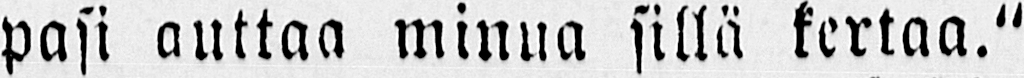pasi auttaa minua sillä kertaa."
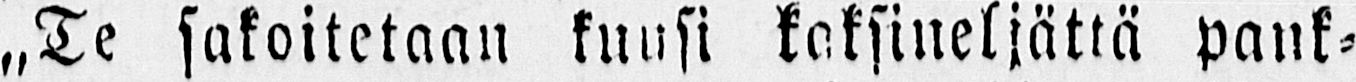„Te sakoitetaan kuusi kaksineljättä pank-
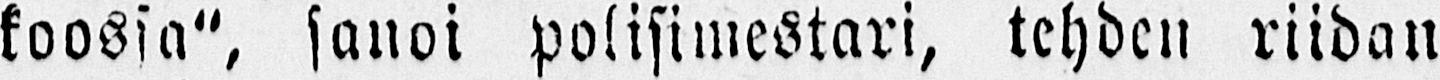koossa", sanoi polisimestari, tehden riidan
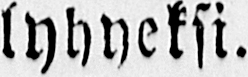lyhyeksi.
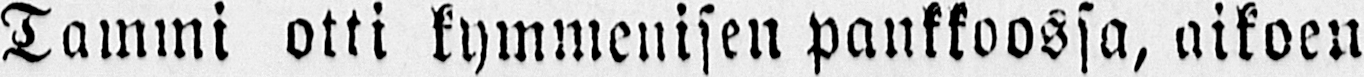Tammi otti kymmenisen pankkoossa, aikoen
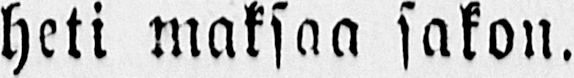heti maksaa sakon.
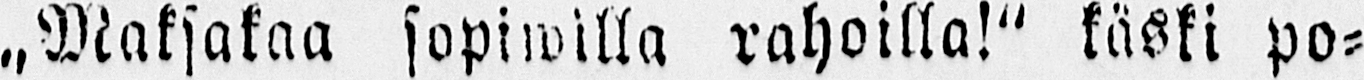"Maksakaa sopi willa rahoilla!" käski po-
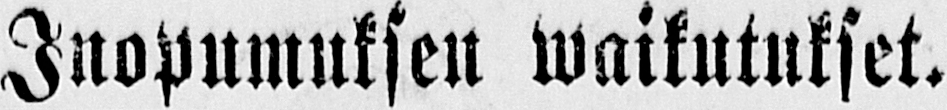Jnopumuksen waikutukset.
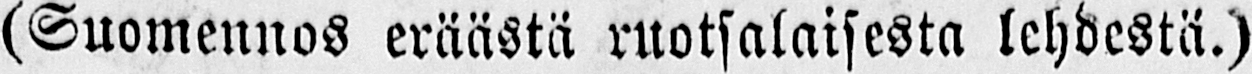(Suomennos eräästä ruotsalaisesta lehdestä.)
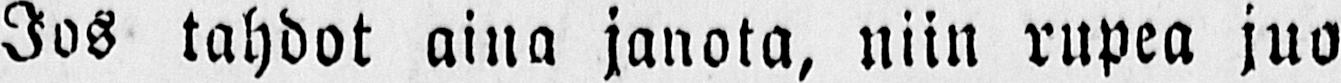Jos tahdot aina janota, niin rupea juo
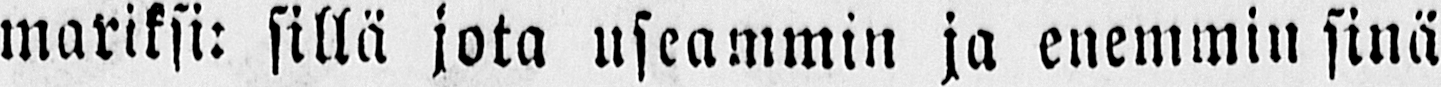mariksi: sillä jota useammin ja enemmin sinä
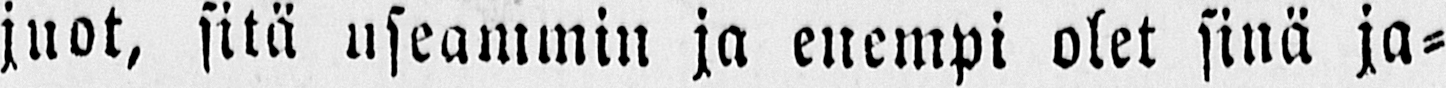juot, sitä useammin ja enempi olet sinä ja-
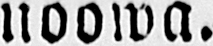noowa.
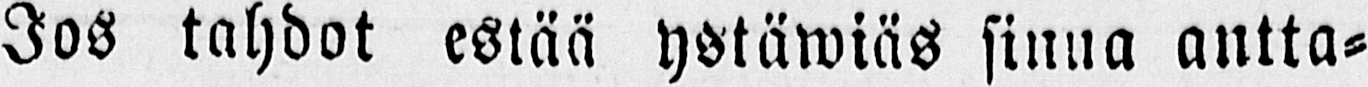Jos tahdot estää ystäwiäs sinua antta-
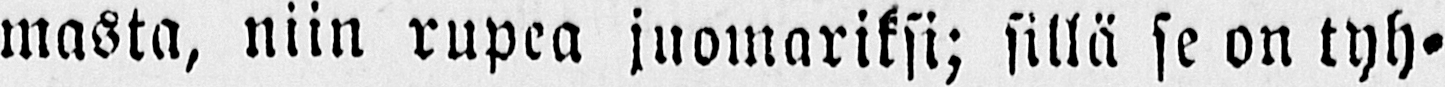masta, niin rupea juomariksi; sillä se on tyh-
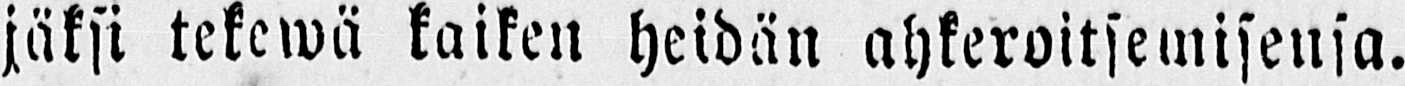jäksi tekewä kaiken heidän ahkeroitsemisensa.
